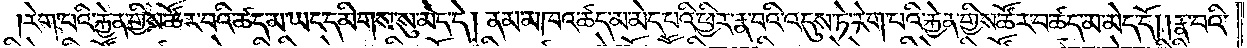རེག་པའི་རྐྱེན་གྱིས་ཚོར་བའི་ཚད་མ་ཡང་དམིགས་སུ་མེད་དེ། ནམ་མཁའ་ཚད་མ་མེད་པའི་ཕྱིར་རྣ་བའི་འདུས་ཏེ་རེག་པའི་རྐྱེན་གྱིས་ཚོར་བ་ཚད་མ་མེད་དོ། །རྣ་བའི་
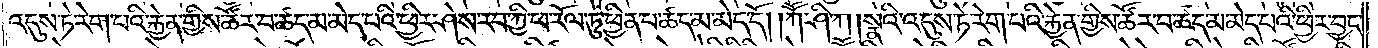འདུས་ཏེ་རེག་པའི་རྐྱེན་གྱིས་ཚོར་བ་ཚད་མ་མེད་པའི་ཕྱིར་ཤེས་རབ་ཀྱི་ཕ་རོལ་ཏུ་ཕྱིན་པ་ཚད་མ་མེད་དོ། །ཀཽ་ཤི་ཀ །སྣའི་འདུས་ཏེ་རེག་པའི་རྐྱེན་གྱིས་ཚོར་བ་ཚད་མ་མེད་པའི་ཕྱིར་བྱང་
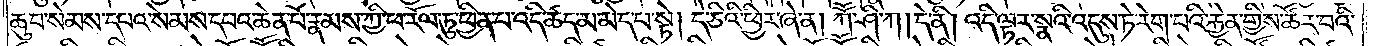ཆུབ་སེམས་དཔའ་སེམས་དཔའ་ཆེན་པོ་རྣམས་ཀྱི་ཕ་རོལ་ཏུ་ཕྱིན་པ་འདི་ཚད་མ་མེད་པ་སྟེ། དེ་ཅིའི་ཕྱིར་ཞེ་ན། ཀཽ་ཤི་ཀ །དེ་ནི། འདི་ལྟར་སྣའི་འདུས་ཏེ་རེག་པའི་རྐྱེན་གྱིས་ཚོར་བའི་
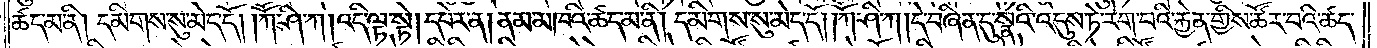ཚད་མ་ནི། དམིགས་སུ་མེད་དོ༎ ཀཽ་ཤི་ཀ །འདི་ལྟ་སྟེ། དཔེར་ན། ནམ་མཁའི་ཚད་མ་ནི། དམིགས་སུ་མེད་དོ། །ཀཽ་ཤི་ཀ །དེ་བཞིན་དུ་སྣའི་འདུས་ཏེ་རེག་པའི་རྐྱེན་གྱིས་ཚོར་བའི་ཚད་
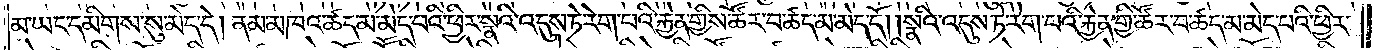མ་ཡང་དམིགས་སུ་མེད་དེ། ནམ་མཁའ་ཚད་མ་མེད་པའི་ཕྱིར་སྣའི་འདུས་ཏེ་རེག་པའི་རྐྱེན་གྱིས་ཚོར་བ་ཚད་མ་མེད་དོ། །སྣའི་འདུས་ཏེ་རེག་པའི་རྐྱེན་གྱིས་ཚོར་བ་ཚད་མ་མེད་པའི་ཕྱིར་
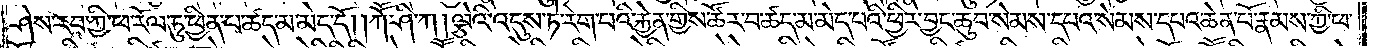ཤེས་རབ་ཀྱི་ཕ་རོལ་ཏུ་ཕྱིན་པ་ཚད་མ་མེད་དོ། །ཀཽ་ཤི་ཀ །ལྕེའི་འདུས་ཏེ་རེག་པའི་རྐྱེན་གྱིས་ཚོར་བ་ཚད་མ་མེད་པའི་ཕྱིར་བྱང་ཆུབ་སེམས་དཔའ་སེམས་དཔའ་ཆེན་པོ་རྣམས་ཀྱི་ཕ་
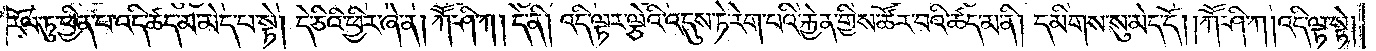རོལ་ཏུ་ཕྱིན་པ་འདི་ཚད་མ་མེད་པ་སྟེ། དེ་ཅིའི་ཕྱིར་ཞེ་ན། ཀཽ་ཤི་ཀ། དེ་ནི། འདི་ལྟར་ལྕེའི་འདུས་ཏེ་རེག་པའི་རྐྱེན་གྱིས་ཚོར་བའི་ཚད་མ་ནི། དམིགས་སུ་མེད་དོ། །ཀཽ་ཤི་ཀ། འདི་ལྟ་སྟེ།
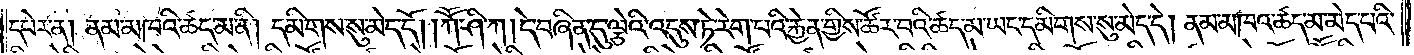དཔེར་ན། ནམ་མཁའི་ཚད་མ་ནི། དམིགས་སུ་མེད་དོ། །ཀཽ་ཤི་ཀ །དེ་བཞིན་དུ་ལྕེའི་འདུས་ཏེ་རེག་པའི་རྐྱེན་གྱིས་ཚོར་བའི་ཚད་མ་ཡང་དམིགས་སུ་མེད་དེ། ནམ་མཁའ་ཚད་མ་མེད་པའི་
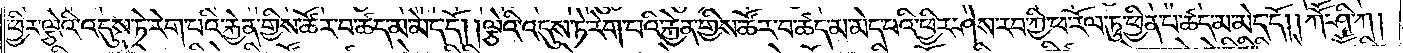ཕྱིར་ལྕེའི་འདུས་ཏེ་རེག་པའི་རྐྱེན་གྱིས་ཚོར་བ་ཚད་མ་མེད་དོ། །ལྕེའི་འདུས་ཏེ་རེག་པའི་རྐྱེན་གྱིས་ཚོར་བ་ཚད་མ་མེད་པའི་ཕྱིར་ཤེས་རབ་ཀྱི་ཕ་རོལ་ཏུ་ཕྱིན་པ་ཚད་མ་མེད་དོ། །ཀཽ་ཤི་ཀ།
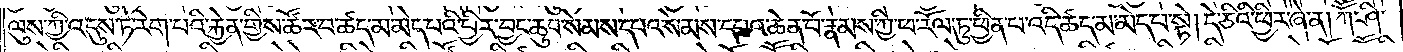ལུས་ཀྱི་འདུས་ཏེ་རེག་པའི་རྐྱེན་གྱིས་ཚོར་བ་ཚད་མ་མེད་པའི་ཕྱིར་བྱང་ཆུབ་སེམས་དཔའ་སེམས་དཔའ་ཆེན་པོ་རྣམས་ཀྱི་ཕ་རོལ་ཏུ་ཕྱིན་པ་འདི་ཚད་མ་མེད་པ་སྟེ། དེ་ཅིའི་ཕྱིར་ཞེ་ན། ཀཽ་ཤི་
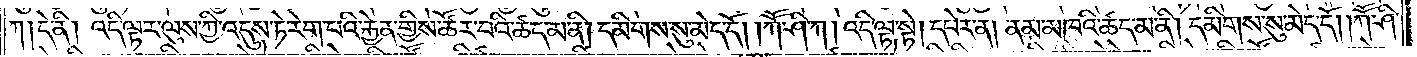ཀ ༏ དེ་ནི། འདི་ལྟར་ལུས་ཀྱི་འདུས་ཏེ་རེག་པའི་རྐྱེན་གྱིས་ཚོར་བའི་ཚད་མ་ནི། དམིགས་སུ་མེད་དོ། །ཀཽ་ཤི་ཀ །འདི་ལྟ་སྟེ། དཔེར་ན། ནམ་མཁའི་ཚད་མ་ནི། དམིགས་སུ་མེད་དོ། །ཀཽ་ཤི་
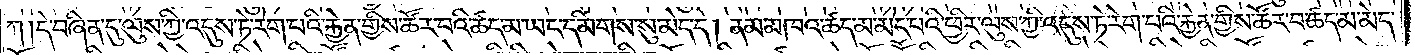ཀ །དེ་བཞིན་དུ་ལུས་ཀྱི་འདུས་ཏེ་རེག་པའི་རྐྱེན་གྱིས་ཚོར་བའི་ཚད་མ་ཡང་དམིགས་སུ་མེད་དེ། ནམ་མཁའ་ཚད་མ་མེད་པའི་ཕྱིར་ལུས་ཀྱི་འདུས་ཏེ་རེག་པའི་རྐྱེན་གྱིས་ཚོར་བ་ཚད་མ་མེད་
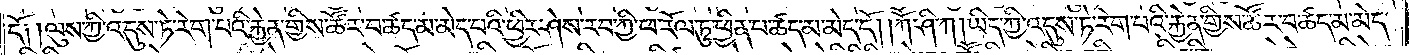དོ༑ ༑ལུས་ཀྱི་འདུས་ཏེ་རེག་པའི་རྐྱེན་གྱིས་ཚོར་བ་ཚད་མ་མེད་པའི་ཕྱིར་ཤེས་རབ་ཀྱི་ཕ་རོལ་ཏུ་ཕྱིན་པ་ཚད་མ་མེད་དོ། །ཀཽ་ཤི་ཀ །ཡིད་ཀྱི་འདུས་ཏེ་རེག་པའི་རྐྱེན་གྱིས་ཚོར་བ་ཚད་མ་མེད་
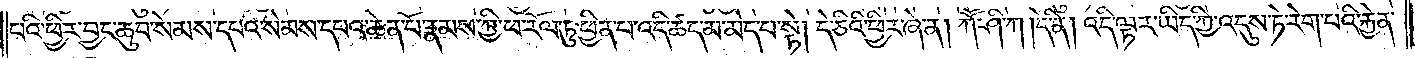པའི་ཕྱིར་བྱང་ཆུབ་སེམས་དཔའ་སེམས་དཔའ་ཆེན་པོ་རྣམས་ཀྱི་ཕ་རོལ་ཏུ་ཕྱིན་པ་འདི་ཚད་མ་མེད་པ་སྟེ། དེ་ཅིའི་ཕྱིར་ཞེ་ན། ཀཽ་ཤི་ཀ །དེ་ནི། འདི་ལྟར་ཡིད་ཀྱི་འདུས་ཏེ་རེག་པའི་རྐྱེན་
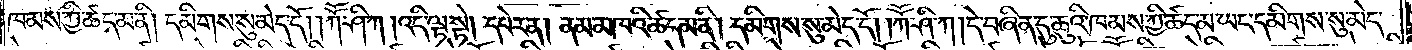ཁམས་ཀྱི་ཚད་མ་ནི། དམིགས་སུ་མེད་དོ། །ཀཽ་ཤི་ཀ །འདི་ལྟ་སྟེ། དཔེར་ན། ནམ་མཁའི་ཚད་མ་ནི། དམིགས་སུ་མེད་དོ། །ཀཽ་ཤི་ཀ །དེ་བཞིན་དུ་ཆུའི་ཁམས་ཀྱི་ཚད་མ་ཡང་དམིགས་སུ་མེད་
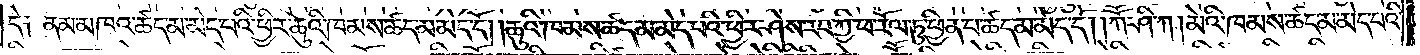དེ༑ ནམ་མཁའ་ཚད་མ་མེད་པའི་ཕྱིར་ཆུའི་ཁམས་ཚད་མ་མེད་དོ། ། ཆུའི་ཁམས་ཚད་མ་མེད་པའི་ཕྱིར་ཤེས་རབ་ཀྱི་ཕ་རོལ་ཏུ་ཕྱིན་པ་ཚད་མ་མེད་དོ། །ཀཽ་ཤི་ཀ །མེའི་ཁམས་ཚད་མ་མེད་པའི་
